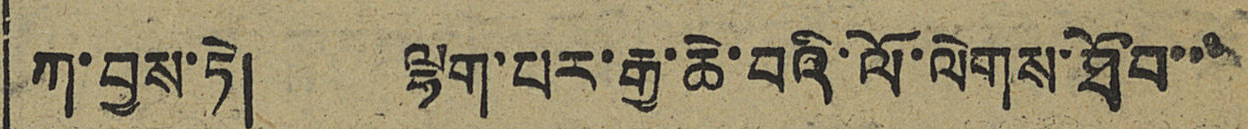ཀ་བྱས་ཏེ། ལྷག་པར་རྒྱ་ཆེ་བའི་ལོ་ལེགས་ཐོབ་་་
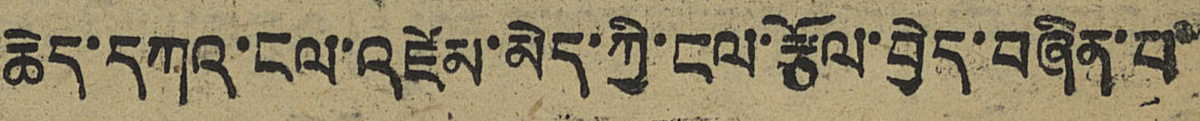ཆེད་དཀའ་ངལ་འཛེམ་མེད་ཀྱི་ངལ་རྩོལ་བྱེད་བཞིན་བ་
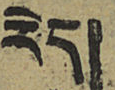རེད།
